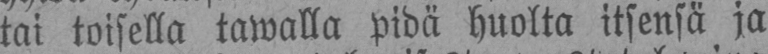tai toisella tawalla pidä huolta itsensä ja
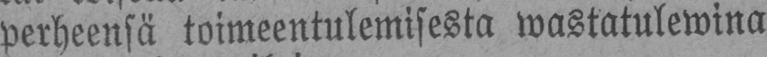perheensä toimeentulemisesta wastatulewina
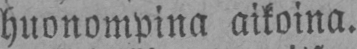huonompina aikoina.
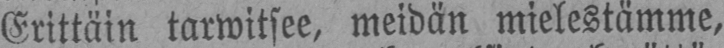Erittäin tarwitsee, meidän mielestämme,
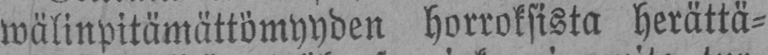wälinpitämättömyyden horroksista herättä-
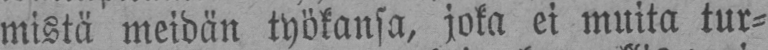mistä meidän työkansa, joka ei muita tur-
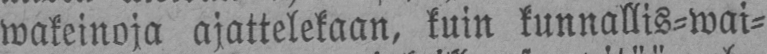wakeinoja ajattelekaan, kuin kunnallis-wai-
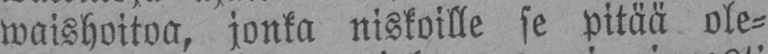waishoitoa, jonka niskoille se pitää ole-
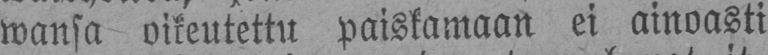wansa oikeutettu paiskamaan ei ainoasti
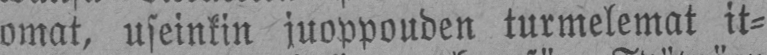omat, useinkin juoppouden turmelemat it-
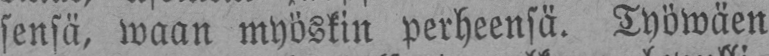sensä, waan myöskin perheensä. Työwäen
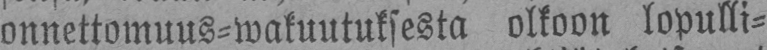onnettomuus-wakuutuksesta olkoon lopulli-
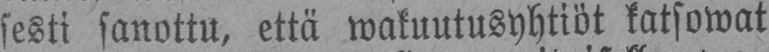sesti sanottu, että wakuutusyhtiöt katsowat
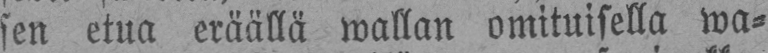sen etua eräällä wallan omituisella wa-
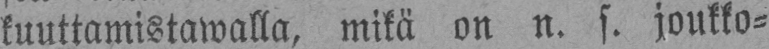kuuttamistawalla, mikä on n. s. joukko-
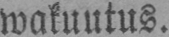wakuutus.
